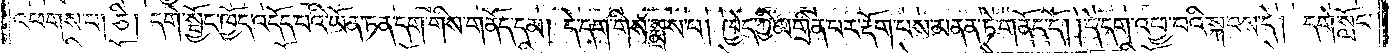འཕགས་པ། ཅི། དགེ་སྦྱོང་ཁྱོད་འདོད་པའི་ཡོན་ཏན་དག་གིས་གནོད་དམ། དེ་དག་གིས་སྨྲས་པ། ཁྱེད་ཀྱི་མགྲིན་པར་རྡོག་པས་མནན་ཏེ་གནོད་དོ། །དེ་དག་འཕྱ་བའི་སྐབས་དེ། དགེ་སློང་
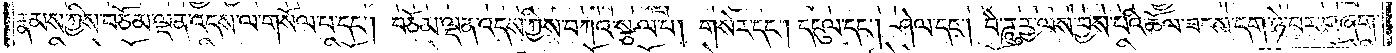རྣམས་ཀྱིས་བཅོམ་ལྡན་འདས་ལ་གསོལ་པ་དང༌། བཅོམ་ལྡན་འདས་ཀྱིས་བཀའ་སྩལ་པ། གསེར་དང༌། དངུལ་དང༌། ཤེལ་དང༌། བཻ་ཌཱུཪྻ་ལས་བྱས་པའི་ཆོལ་ཟངས་དག་ཉེ་བར་གཞག་
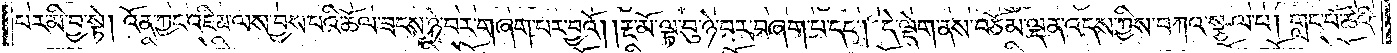པར་མི་བྱ་སྟེ། འོན་ཀྱང་འཇིམ་ལས་བྱས་པའི་ཆོལ་ཟངས་ཉེ་བར་གཞག་པར་བྱའོ། །རྔ་མོ་ལྟ་བུ་ཉེ་བར་བཞག་པ་དང༌། དེ་ལྡེག་ནས་བཅོམ་ལྡན་འདས་ཀྱིས་བཀའ་སྩལ་པ། གླང་པོ་ཆེའི་
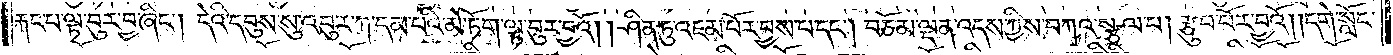རྐང་པ་ལྟ་བུར་བྱ་ཞིང༌། དེའི་དབུས་སུ་འབུར་ཀ་དམ་པའི་མེ་ཏོག་ལྟ་བུར་བྱའོ། །ཤིན་ཏུ་འཇམ་པོར་བྱས་པ་དང༌། བཅོམ་ལྡན་འདས་ཀྱིས་བཀའ་སྩལ་པ། རྩུབ་པོར་བྱའོ། །དགེ་སློང་
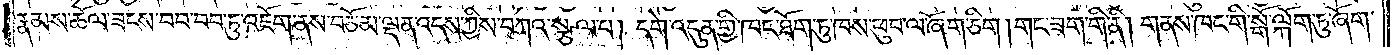རྣམས་ཆོལ་ཟངས་བབ་བབ་ཏུ་འཇོག་ནས་བཅོམ་ལྡན་འདས་ཀྱིས་བཀའ་སྩལ་པ། དགེ་འདུན་གྱི་ཁང་ཐོག་ཏུ་ཁས་ཕུལ་ལ་ཞོག་ཅིག །གང་ཟག་གི་ནི། གནས་ཁང་གི་སྒོ་ལྐོག་ཏུ་ཞོག་
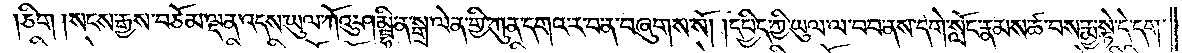ཅིག །སངས་རྒྱས་བཅོམ་ལྡན་འདས་ཡུལ་ཀོའུ་ཤམྦྷི་ན་སྒྲ་ལེན་གྱི་ཀུན་དགའ་ར་བ་ན་བཞུགས་སོ། །དཔྱིད་ཀྱི་ཡུལ་ལ་བབ་ནས་དགེ་སློང་རྣམས་ཚ་བས་རྨྱ་སྟེ་དེ་དག་
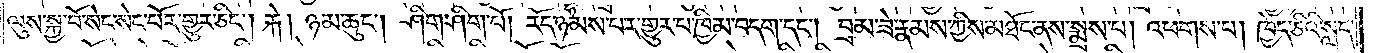ལུས་སྐྱ་བོ་སེང་སེང་པོར་གྱུར་ཅིང༌། རྐེ། ཉམ་ཆུང༌། ཤིག་ཤིག་པོ། རོད་ཉམས་པར་གྱུར་པ་ཁྱིམ་བདག་དང༌། བྲམ་ཟེ་རྣམས་ཀྱིས་མཐོང་ནས་སྨྲས་པ། འཕགས་པ། ཁྱེད་ཅིའི་སླད་
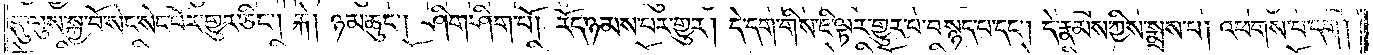དུ་ལུས་སྐྱ་བོ་སེང་སེང་པོར་གྱུར་ཅིང༌། རྐེ། ཉམ་ཆུང༌། ཤིག་ཤིག་པོ། རོད་ཉམས་པར་གྱུར། དེ་དག་གིས་ཇི་ལྟར་གྱུར་པ་བསྙད་པ་དང༌། དེ་རྣམས་ཀྱིས་སྨྲས་པ། འཕགས་པ་དག།
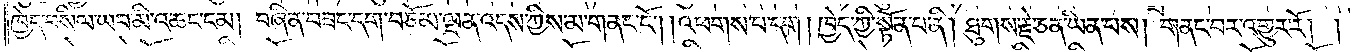ཁྱེད་བསིལ་ཡབ་མི་འཆང་ངམ། བཞིན་བཟང་དག་བཅོམ་ལྡན་འདས་ཀྱིས་མ་གནང་ངོ༌། །འཕགས་པ་དག །ཁྱེད་ཀྱི་སྟོན་པ་ནི། ཐུགས་རྗེ་ཅན་ཡིན་པས། གནང་བར་འགྱུར་རོ། །
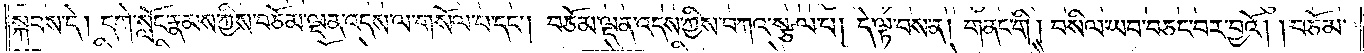སྐབས་དེ། དགེ་སློང་རྣམས་ཀྱིས་བཅོམ་ལྡན་འདས་ལ་གསོལ་པ་དང༌། བཅོམ་ལྡན་འདས་ཀྱིས་བཀའ་སྩལ་པ། དེ་ལྟ་བས་ན། གནང་གི། བསིལ་ཡབ་བཅང་བར་བྱའོ། །བཅོམ་
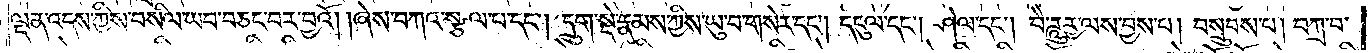ལྡན་འདས་ཀྱིས་བསིལ་ཡབ་བཅང་བར་བྱའོ། །ཞེས་བཀའ་སྩལ་པ་དང༌། དྲུག་སྡེ་རྣམས་ཀྱིས་ཡུ་བ་གསེར་དང༌། དངུལ་དང༌། ཤེལ་དང༌། བཻཌཱུཪྻ་ལས་བྱས་པ། བསྲུབས་པ། བཀྲ་བ་
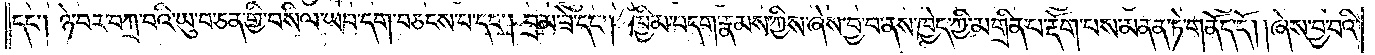དང༌། ཉེ་བར་བཀྲ་བའི་ཡུ་བ་ཅན་གྱི་བསིལ་ཡབ་དག་བཅངས་པ་དང༌། བྲམ་ཟེ་དང༌། ཁྱིམ་བདག་རྣམས་ཀྱིས་ཞེས་བྱ་བ་ནས་ཁྱེད་ཀྱི་མགྲིན་པ་རྡོག་པས་མནན་ཏེ་གནོད་དོ། །ཞེས་བྱ་བའི་
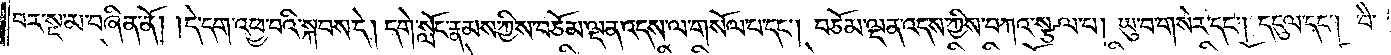བར་སྔ་མ་བཞིན་ནོ། །དེ་དག་འཕྱ་བའི་སྐབས་དེ། དགེ་སློང་རྣམས་ཀྱིས་བཅོམ་ལྡན་འདས་ལ་གསོལ་པ་དང༌། བཅོམ་ལྡན་འདས་ཀྱིས་བཀའ་སྩལ་པ། ཡུ་བ་གསེར་དང༌། དངུལ་དང༌། བཻ་
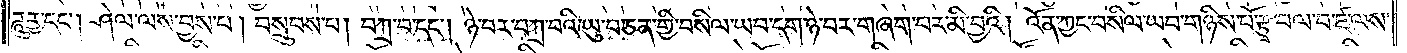ཌཱུཪྻ་དང༌། ཤེལ་ལས་བྱས་པ། བསྲུབས་པ། བཀྲ་བ་དང༌། ཉེ་བར་བཀྲ་བའི་ཡུ་བ་ཅན་གྱི་བསིལ་ཡབ་དག་ཉེ་བར་གཞག་པར་མི་བྱའི། འོན་ཀྱང་བསིལ་ཡབ་གཉིས་པོ་རྩྭ་བལ་བ་ཛ་ལས་
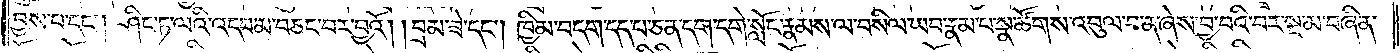བྱས་པ་དང༌། ཤིང་ཏ་ལའི་འདབ་མ་བཅང་བར་བྱའོ། །བྲམ་ཟེ་དང༌། ཁྱིམ་བདག་དད་པ་ཅན་དག་དགེ་སློང་རྣམས་ལ་བསིལ་ཡབ་རྣམ་པ་སྣ་ཚོགས་འབུལ་བ་ན་ཞེས་བྱ་བའི་བར་སྔ་མ་བཞིན་
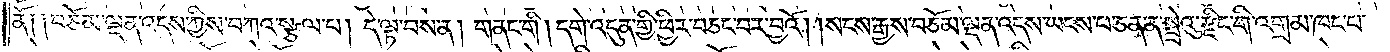ནོ༑ ༑བཅོམ་ལྡན་འདས་ཀྱིས་བཀའ་སྩལ་པ། དེ་ལྟ་བས་ན། གནང་གི། དགེ་འདུན་གྱི་ཕྱིར་བཅང་བར་བྱའོ། །སངས་རྒྱས་བཅོམ་ལྡན་འདས་ཡངས་པ་ཅན་ན་སྤྲེའུ་རྫིང་གི་འགྲམ་ཁང་པ་
